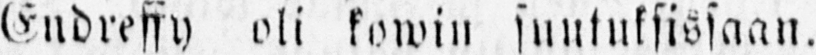Endreffy oli kowin suutuksissaan.
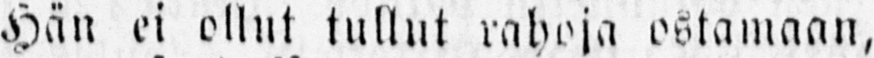Hän ei ollut tullut rahoja ostamaan,
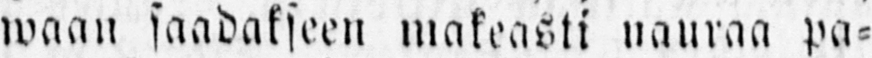waan saadakseen makeasti nauraa pa-
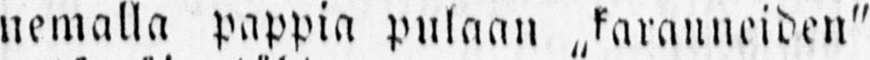nemalla pappia pulaan „karanneiden"
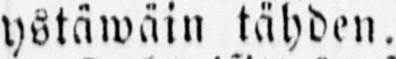ystäwäin tähden.
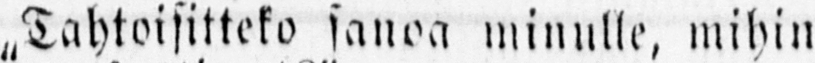„Tahtoisitteko sanoa minulle, mihin
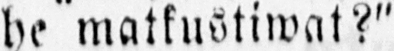he matkustiwat?"
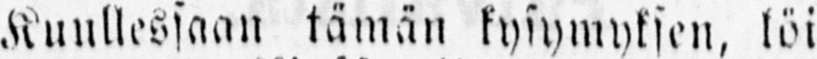Kuullessaan tämän kysymyksen, löi
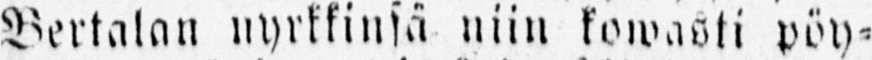Bertalan nyrkkinsä niin kowasti pöy-
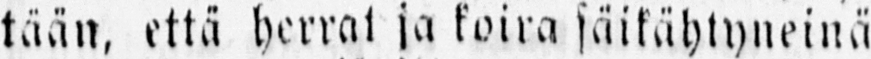tään, että herrat ja koira säikähtyneinä
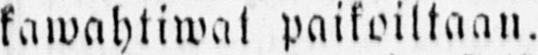kawahtiwat paikoiltaan.
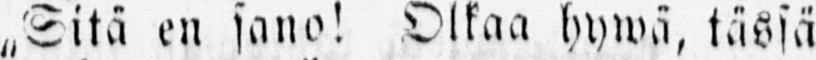„Sitä en sano! Olkaa hywä, tässä
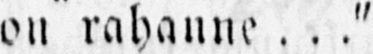on rahanne . . ."
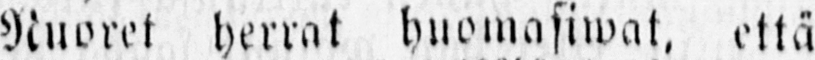Nuoret herrat huomasiwat, että
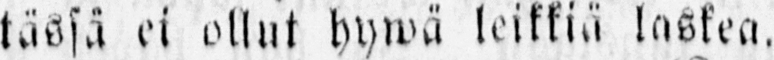tässä ei ollut hywä leikkiä laskea.
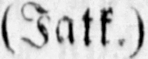(Jatk.)
